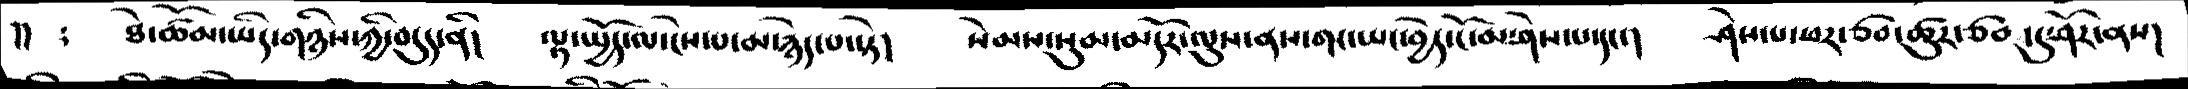།།  ཿ   ཐེ་ཚོམ་ཡིད་གཉིས་ཀྱི་བདུད་ནི།  ལྟ་སྤྱོད་ལ་ངེས་པ་མ་རྙེད་པ་སྟེ།  སེམས་སུམ་མདོར་ལུས་ནས་གང་ཡང་བྱེད་ངོ་མ་ཤེས་པ་དང་།  ཤེས་པ་ཕར་ཙབ་ཚུར་ཙབ་དུ་ཤོར་ནས།
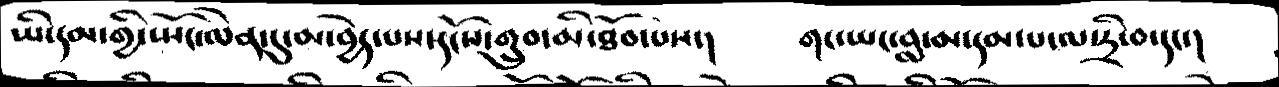ཡི་དམ་གྱི་སྤོང་ལེན་དུ་མ་བྱེད་པས་དངོས་གྲུབ་མི་ཐོབ་པས་།  གང་ཡང་བླ་མ་དམ་པ་ལ་དྲི་བ་དང་།
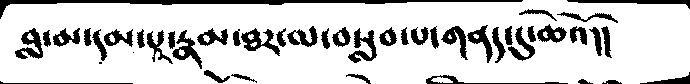བླ་མ་དམ་པའི་རྣམ་ཐར་ལ་བསླབ་པ་གནད་དུ་ཆེའོ།།
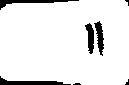།།
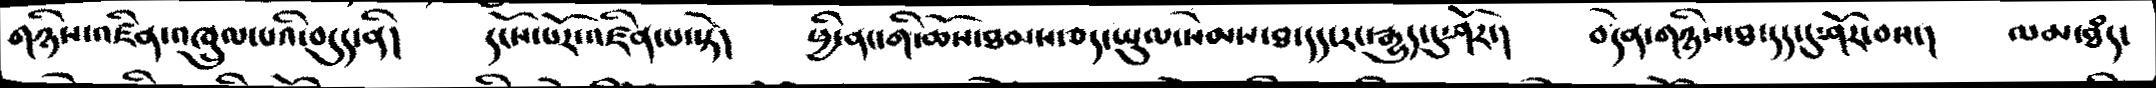གཉིས་འཛིན་འཁྲུལ་པའི་བདུད་ནི།    དངོས་པོར་འཛིན་པ་སྟེ།    ཕྱི་ནང་གི་ཆོས་ཐམས་ཅད་ཡུལ་སེམས་ཐ་དད་རང་རྒྱུད་དུ་ཤོར་།   བདེན་གཉིས་ཐ་དད་དུ་ཤོར་བས་།   ལམ་ཐདཾ་
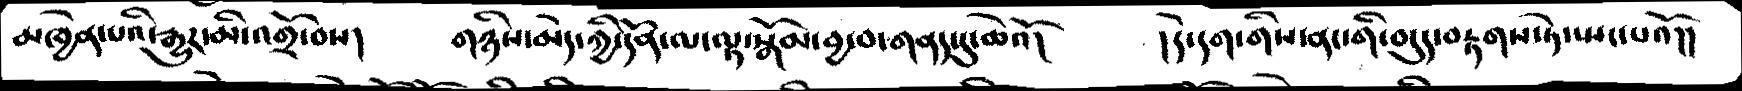མཁྱེན་པའི་རྒྱུར་མི་འགྲོ་བས།   གཉིས་མེད་ཀྱི་དོན་ལ་ལྟ་སྒོམ་བྱ་བ་གནད་དུ་ཆེའོ།    །དེ་དག་གིས་ནང་གི་བདུད་བརྟགས་ཏེ་སྤང་པའོ།།
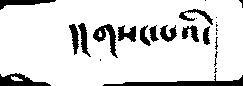།། གསང་པའི་
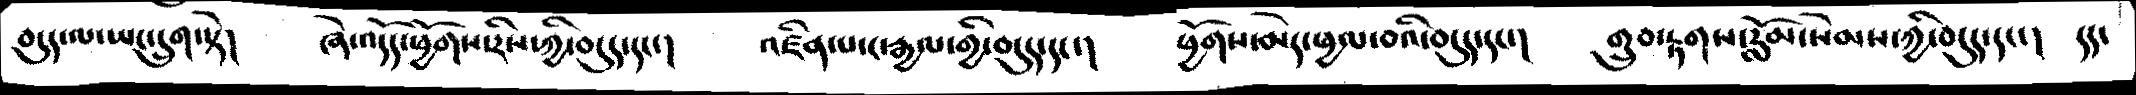བདུད་ལ་ཡང་དྲུག་སྟེ།    ཞེ་འདོད་ཕྱོགས་རིས་ཀྱི་བདུད་དང་།    འཛིན་པ་ང་རྒྱལ་གྱི་བདུད་དང་།    ཕྱོགས་མེད་ཕྱལ་བའི་བདུད་དང་།    གྲུབ་རྟགས་རློམ་སེམས་ཀྱི་བདུད་དང་།  དད་
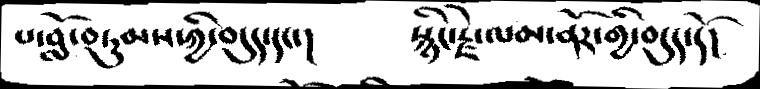པ་བློ་བཏུམས་ཀྱི་བདུད་དང་།     སྙིང་རྗེ་ལམ་ནོར་གྱི་བདུད་དོ།
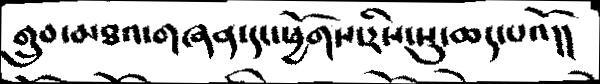གྲུབ་མཐའ་གཞན་དང་ཕྱོགས་རིས་སུ་ཆད་པའོ།།
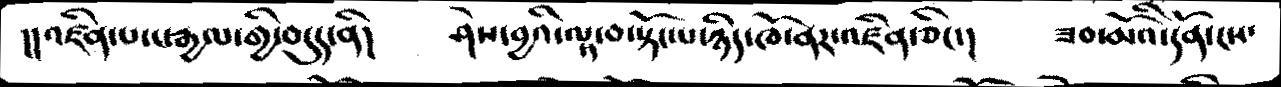།།འཛིན་པ་ང་རྒྱལ་གྱི་བདུད་ནི།  ཤེས་བྱའི་ལྟ་བ་སྟོང་པ་ཉིད་ཁོ་ནར་འཛིན་ཅིང་།  ཟབ་མོའི་དོན་ངས་
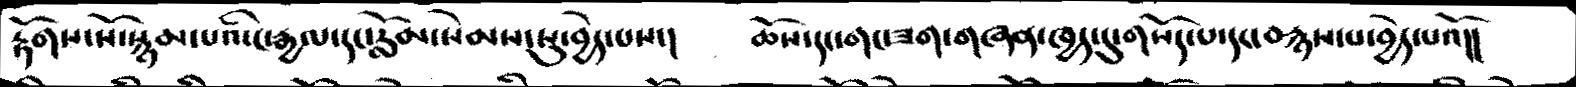རྟོགས་སོ་སྙམ་པའི་ང་རྒྱལ་དང་རློམ་སེམས་སུ་བྱེད་པས་།  ཆོས་དང་གང་ཟག་གཞན་ཁྱད་དུ་གསོད་པ་དང་བརྙས་པ་བྱེད་པའོ།།
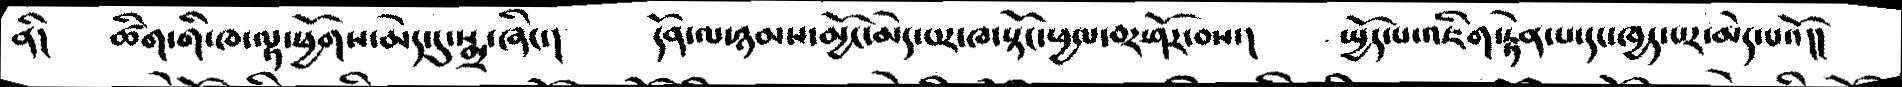ནི།   ཚིག་གི་ཁ་ལྟ་ཕྱོགས་མེད་དུ་སྨྲ་ཞིང་།       དོན་ལ་ཉམས་མྱོང་མེད་པར་ཁ་སྟོང་ཕྱལ་བར་ཤོར་བས་།    སྤྱོད་པ་འཇིག་རྟེན་པ་དང་ཁྱད་པར་མེད་པའོ།།
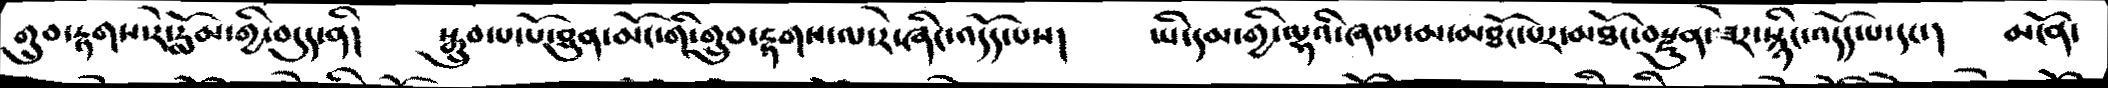གྲུབ་རྟགས་རེ་རློམ་གྱི་བདུད་ནི།     སྒྲུབ་པ་པོ་ཐུན་མོང་གི་གྲུབ་རྟགས་ལ་རེ་ཞིང་འདོད་པས།     ཡི་དམ་གྱི་ལྷའི་ཞལ་མ་མཐོང་པར་མཐོང་བརྫུན་ཟེར་སྙིང་འདོད་པ་དང་།   མངོན་
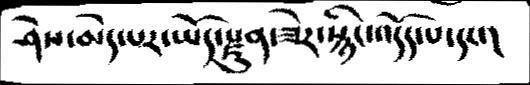ཤེས་མེད་པར་ཡོད་རྫུན་ཟེར་སྙིང་འདོད་པ་དང་།
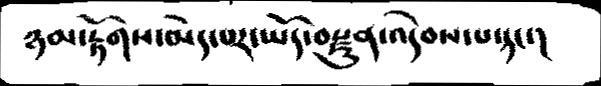ཉམ་རྟོགས་མེད་པར་ཡོད་བརྫུན་འདེབས་པ་དང་།
